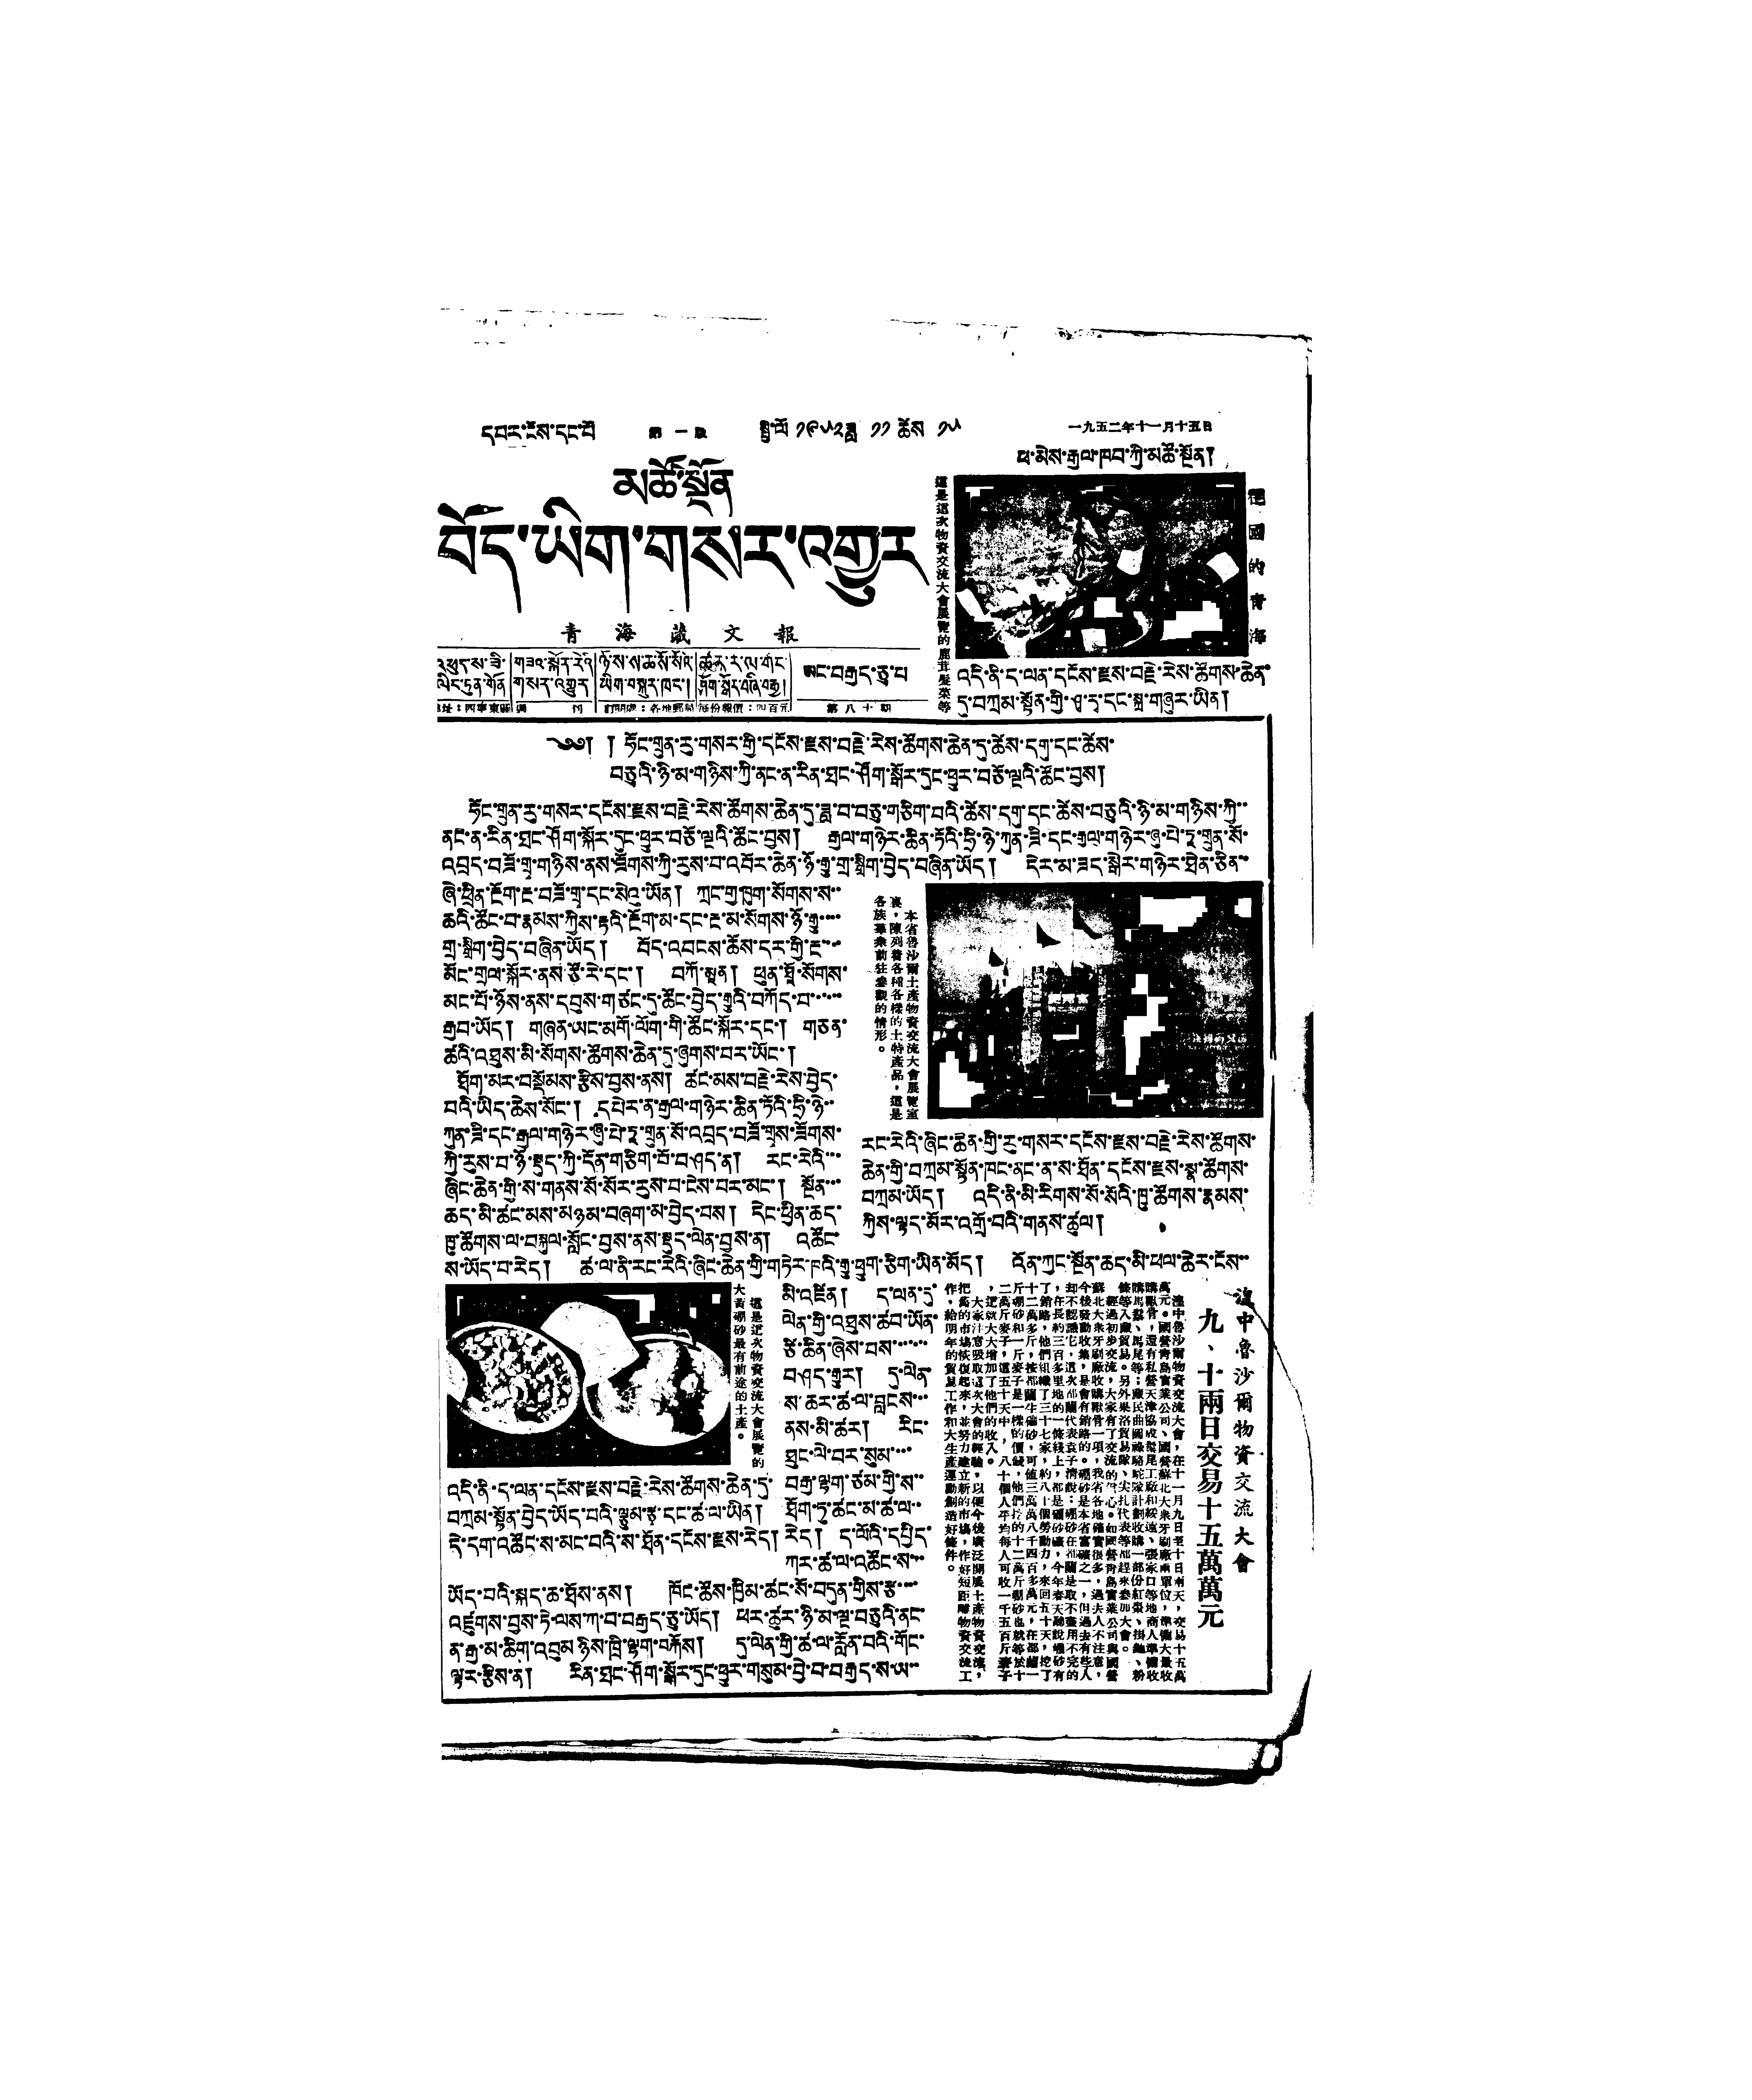དཔར་ངོས་དང་པོ་ 第一版 སྤྱི་ལོ ༡༩༥༢ ཟླ ༡༡ ཚེས ༡༥ 一九五二年十一月十五日
མཚོ་སྔོན
བོད་ཡིག་གསར་འགྱུར
靑 海 藏 文 報
祖 國 的 靑 海
這是這次物資交流大會展覽的鹿茸髮菜等
ཕ་མེས་རྒྱལ་ཁབ་ཀྱི་མཚོ་སྔོན།
འདི་ནི་ད་ལན་དངོས་རྫས་བརྗེ་རེས་ཚོགས་ཆེན་
དུ་བཀྲམ་སྟོན་གྱི་ཤྭ་རྭ་དང་སྐྲ་གཞུར་ཡིན།
༄༅། ། ཧོང་གྲུན་རུ་གསར་གྱི་དངོས་རྫས་བརྗེ་རེས་ཚོགས་ཆེན་དུ་ཚེས་དགུ་དང་ཚེས་
བཅུའི་ཉི་མ་གཉིས་ཀྱི་ནང་ན་རིན་ཐང་ཤོག་སྒོར་དུང་ཕྱུར་བཅོ་ལྔའི་ཚོང་བྱས།
ཧོང་གྲུན་རུ་གསར་དངོས་རྫས་བརྗེ་རེས་ཚོགས་ཆེན་དུ་ཟླ་བ་བཅུ་གཅིག་པའི་ཚེས་དགུ་དང་ཚེས་བཅུའི་ཉི་མ་གཉིས་ཀྱི་་
ནང་ན་རིན་ཐང་ཤོག་སྐོར་དུང་ཕྱུར་བཅོ་ལྔའི་ཚོང་བྱས། རྒྱལ་གཉེར་ཆིན་ཏོའི་ཧྲི་ཉེ་ཀུན་ཟི་དང་རྒྱལ་གཉེར་ཞུ་པེ་ཏཱ་གྲུན་སོ་
འབྲད་བཟོ་གྲྭ་གཉིས་ནས་ཟོགས་ཀྱི་རུས་པ་འབོར་ཆེན་ཉོ་རྒྱུ་གྲ་སྒྲིག་བྱེད་བཞིན་ཡོད། དེར་མ་ཟད་སྒེར་གཉེར་ཐེན་ཅིན་་
ཞེ་ཕྲིན་རྔོག་རྔ་བཟོ་གྲྭ་དང་སེའུ་ཡོན། ཀྲང་གྱ་ཁུག་སོགས་ས་་
ཆའི་ཚོང་བ་རྣམས་ཀྱིས་རྟའི་རྔོག་མ་དང་རྔ་མ་སོགས་ཉོ་རྒྱུ་་་་
གྲ་སྒྲིག་བྱེད་བཞིན་ཡོད། བོད་འབངས་ཆོས་དར་གྱི་རྔ་་་་
མོང་གྲལ་སྐོར་ནས་ཙོ་རེ་དང་། བཀོ་མཱན། ཕུན་ཐཱོ་སོགས་
མང་པོ་ཉོས་ནས་དབུས་གཙང་དུ་ཚོང་བྱེད་རྒྱུའི་བཀོད་པ་་་་་་
རྒྱབ་ཡོད། གཞན་ཡང་མགོ་ལོག་གི་ཚོང་སྐོར་དང་། གཅན་
ཚའི་འཐུས་མི་སོགས་ཚོགས་ཆེན་དུ་ཞུགས་པར་ཡོང་།
ཐོག་མར་བསྡོམས་རྩིས་བྱས་ནས། ཚང་མས་བརྗེ་རེས་བྱེད་
བའི་ཡིད་ཆེས་སོང་། དཔེར་ན་རྒྱལ་གཉེར་ཆེན་ཏོའི་ཧྲི་ཉེ་
ཀུན་ཟི་དང་རྒྱལ་གཉེར་ཞུ་པེ་ཏཱ་གྲུན་སོ་འབྲད་བཟོ་གྲས་ཟོགས་
ཀྱི་རུས་པ་ཉོ་སྡུད་ཀྱི་དོན་གཅིག་པོ་བཤད་ན། རང་རེའི་་་
ཞིང་ཆེན་གྱི་ས་གནས་སོ་སོར་རུས་པ་ངེས་པར་མང་། སྔོན་་་
ཆད་མི་ཚང་མས་མཉམ་བཞག་མ་བྱེད་པས། དེང་ཕྱིན་ཆད་
ཁྱུ་ཚོགས་ལ་བསྐུལ་སློང་བྱས་ནས་སྡུད་ལེན་བྱས་ན། འཚོང་
ས་ཡོད་པ་རེད། ཚ་ལ་ནི་རང་རེའི་ཞིང་ཆེན་གྱི་གཏེར་ཁའི་རྒྱུ་ཕྱུག་ཅིག་ཡིན་མོད། འོན་ཀྱང་སྔོན་ཆད་མི་ཕལ་ཆེར་ངོས་་
མི་འཛིན། ད་ལན་དུ་
ལེན་གྱི་འཐུས་ཚབ་ཡོན་
ཙི་ཆིན་ཞེས་པས་་་་་་་
བཤད་རྒྱུར། དུ་ལེན་
ས་ཆར་ཚ་ལ་བླངས་་་
ནས་མི་ཚར། རིང་
ཐུང་ལེ་བར་སུམ་་་་
བརྒྱ་ལྷག་ཙམ་གྱི་ས་་
ཐོག་ཏུ་ཚང་མ་ཚ་ལ་་
རེད། ད་ལོའི་དཔྱིད་
ཀར་ཚ་ལ་འཚོང་ས་་་
ཡོད་པའི་སྐད་ཆ་ཐོས་ནས། ཁོང་ཚོས་ཁྱིམ་ཚང་སོ་བདུན་གྱིས་རྩ་་་་
འཛུགས་བྱས་ཏེ་ལས་ཀ་བ་བརྒྱད་ཅུ་ཡོད། ཕར་ཚུར་ཉི་མ་ལྔ་བཅུའི་ནང་
ན་རྒྱ་མ་ཆིག་འབུམ ཉིས་ཁྲི་ལྷག་བརྐོས། དུ་ལེན་གྱི་ཚ་ལ་རློན་བའི་གོང་
ལྟར་རྩིས་ན། རིན་ཐང་ཤོག་སྒོར་དུང་ཕྱུར་གསུམ་བྱེ་བ་བརྒྱད་ས་ཡ་་
本省魯沙爾土產物資交流大會展覽室
裏，陳列着各種各樣的土特產品，這是
各族羣衆前往參觀的情形。
རང་རེའི་ཞིང་ཆེན་གྱི་རུ་གསར་དངོས་རྫས་བརྗེ་རེས་ཚོགས་
ཆེན་གྱི་བཀྲམ་སྟོན་ཁང་ནང་ན་ས་ཐོན་དངོས་རྫས་སྣ་ཚོགས་
བཀྲམ་ཡོད། འདི་ནི་མི་རིགས་སོ་སོའི་ཁྱུ་ཚོགས་རྣམས་
ཀྱིས་ལྟད་མོར་འགྲོ་བའི་གནས་ཚུལ།
這是這次物資交流大會展覽的
大黃硼砂最有前途的土產。
འདི་ནི་ད་ལན་དངོས་རྫས་བརྗེ་རེས་ཚོགས་ཆེན་དུ་
བཀྲམ་སྟོན་བྱེད་ཡོད་པའི་ལྕུམ་རྩྭ་དང་ཚ་ལ་ཡིན།
དེ་དག་འཚོང་ས་མང་བའི་ས་ཐོན་དངོས་རྫས་རེད།
湟中魯沙爾物資交流大會
九、十兩日交易十五萬萬元
湟中魯沙爾物資交流大會，在十一月九日至十日兩天，交易十五萬
萬元。國營靑島實業公司、國營蘇北大衆牙刷廠兩單位，準備大量收
購獸骨，還有私營天津協成鬃尾工廠和綏遠、張家口等地商人準備收
購馬鬃、馬尾等；藏民曲圖祿駱駝隊計劃收購一部分紅棗、掛麵、粉
條等入藏貿易。另外果洛貿易隊、尖扎代表等都趕來參加大會。
經過初步交流、大家有了交流的信心。如國營靑島實業公司與國營
蘇北大衆牙刷廠收購獸骨一項，我省各地礦寶很多，過去人不注意，
今後發動收集，是會有銷路的。硼砂是本省富礦之一，但過去有些人
却不認識它，這次都蘭代表袁子清說：硼砂在都蘭是取不盡用不完的
，在長約三百多里地的一條綫上，都是硼砂礦，今年春天聽說硼砂有
了銷路，他們組織了三十七家，約八十個勞動力，來回五十天。挖了
十二萬多斤，按都蘭生硼砂，可値三萬萬八千四百多萬元，在都蘭一
斤硼砂和一斤麥子是一樣的價錢，他們挖的十二萬斤硼砂也就等於十
二萬斤麥子，這五十天中 ， 八十個人平均每人可收一千五百斤麥子
，這就大大增加了他們的收入。
大家注意吸取這次大會的經驗，以便今後廣泛開展土產物資交流，
把舊的市場恢復起來，並努力建立新的市場，做好短距離物資交流工
作，給明年的貿易工作和大生產運動創造好條件。
